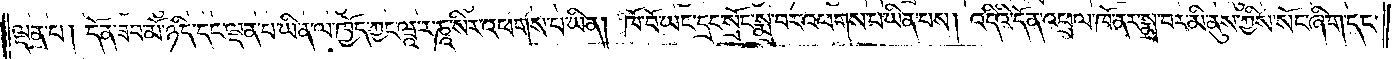ལྡན་པ། དོན་ཟབ་མོ་ཉིད་དང་ལྡན་པ་ཡིན་ལ་ཁྱོད་ཀྱང་ཝཱ་ར་ཎཱ་སིར་འཕགས་པ་ཡིན། ཁོ་བོ་ཡང་དྲང་སྲོང་སྨྲ་བར་འཕགས་པ་ཡིན་པས། འདིའི་དོན་འཕྲལ་ཁོ་ནར་སྨྲ་བར་མི་ནུས་ཀྱིས་སོང་ཞིག་དང་
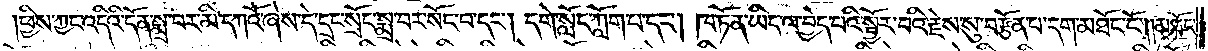།ཕྱིས་ཀྱང་འདིའི་དོན་སྨྲ་བར་མི་དཀའོ་ཞེས་དེ་དྲང་སྲོང་སྨྲ་བར་སོང་བ་དང༌། དགེ་སློང་ཀློག་པ་དང༌། ཁ་ཏོན་ཡིད་ལ་བྱེད་པའི་སྦྱོར་བའི་རྗེས་སུ་བརྩོན་པ་དག་མཐོང་ངོ༌། །མཐོང་
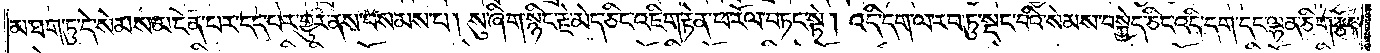མ་ཐག་ཏུ་དེ་སེམས་མངོན་པར་དད་པར་གྱུར་ནས་བསམས་པ། སུ་ཞིག་སྙིང་རྗེ་མེད་ཅིང་འཇིག་རྟེན་ཕ་རོལ་བཏང་སྟེ། འདི་དག་ལ་རབ་ཏུ་སྡང་བའི་སེམས་བསྐྱེད་ཅིང་འདི་དག་དང་ལྷན་ཅིག་རྩོད་
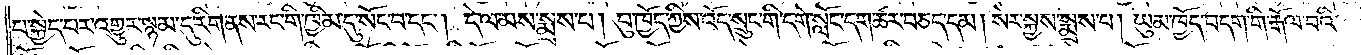པ་སྐྱེད་པར་འགྱུར་སྙམ་དུ་རིག་ནས་རང་གི་ཁྱིམ་དུ་སོང་བ་དང༌། དེ་ལ་མས་སྨྲས་པ། བུ་ཁྱོད་ཀྱིས་འོད་སྲུང་གི་དགེ་སློང་དག་ཚར་བཅད་དམ། སེར་སྐྱས་སྨྲས་པ། ཡུམ་ཁྱོད་བདག་གི་རྒོལ་བའི་
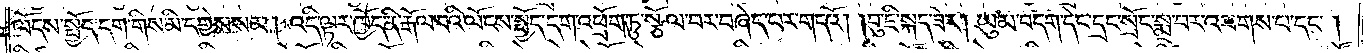ལོངས་སྤྱོད་དག་གིས་མི་དགྱེས་སམ། འདི་ལྟར་ཁྱོད་ནི་རྒོལ་བའི་ལོངས་སྤྱོད་དག་འཕྲོག་ཏུ་སྩོལ་བར་བཞེད་པར་གདའོ། །བུ་ཇི་སྐད་ཟེར། ཡུམ་བདག་དེང་དྲང་སྲོང་སྨྲ་བར་འཕགས་པ་དང༌།
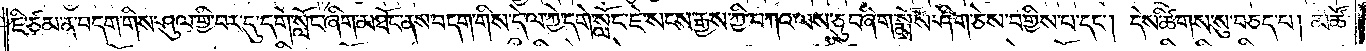ཇི་ཙམ་ན་བདག་གིས་ཤུལ་གྱི་བར་དུ་དགེ་སློང་ཞིག་མཐོང་ནས་བདག་གིས་དེ་ལ་ཀྱེ་དགེ་སློང་ཇེ་སངས་རྒྱས་ཀྱི་བཀའ་ལས་ཅུང་ཞིག་སྨྲོས་ཤིག་ཅེས་བགྱིས་པ་དང༌། དེས་ཚིགས་སུ་བཅད་པ། མཚོ་
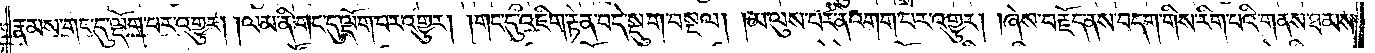རྣམས་གང་དུ་ལྡོག་པར་འགྱུར། །ལམ་ནི་གང་དུ་ལྡོག་པར་འགྱུར། །གང་དུ་འཇིག་རྟེན་བདེ་སྡུག་བསྔལ། །མ་ལུས་པར་ནི་འགག་པར་འགྱུར། །ཞེས་བརྗོད་ནས་བདག་གིས་རིག་པའི་གནས་ཐམས་
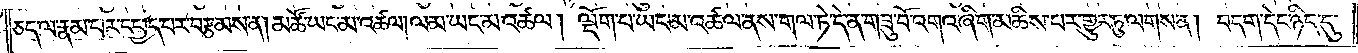ཅད་ལ་རྣམ་པར་དཔྱད་པར་བརྩམས་ན། མཚོ་ཡང་མ་འཚལ།ལམ་ཡང་མ་འཚལ། ལྡོག་པ་ཡང་མ་འཚལ་ནས་གལ་ཏེ་དེ་ན་གཟུ་བོ་འགའ་ཞིག་མཆིས་པར་གྱུར་ཏུ་ལགས་ན། བདག་དེང་ཉིད་དུ་
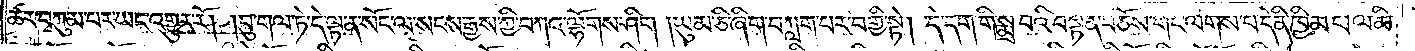ཚར་བཀུམ་པར་ཡང་འགྱུར་རོ། །བུ་གལ་ཏེ་དེ་ལྟ་ན་སོང་ལ་སངས་རྒྱས་ཀྱི་བཀའ་ལྷོགས་ཤིག །ཡུམ་ཅི་ཞིག་བཀླག་པར་བགྱི་སྟེ། དེ་དག་གི་སྨྲ་བའི་བསྟན་བཅོས་གང་ལགས་པ་དེ་ནི་ཁྱིམ་པ་ལ་ཆི་
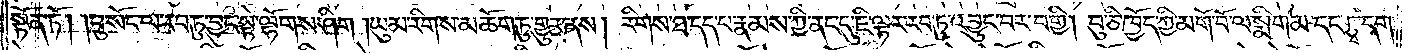སྟོན་ཏོ། །བུ་སོང་ལ་རབ་ཏུ་བྱུང་སྟེ་ལྷོགས་ཤིག །ཡུམ་རིགས་མཆོག་ཏུ་གྱུར་ནས། རིགས་ཐ་དད་པ་རྣམས་ཀྱི་ནང་དུ་ཇི་ལྟར་རབ་ཏུ་འབྱུང་བར་བགྱི། བུ་ཅི་ཁྱོད་ཀྱི་མགོ་བོ་ལ་སྨིག་མ་དང་རྩྭ་དག་
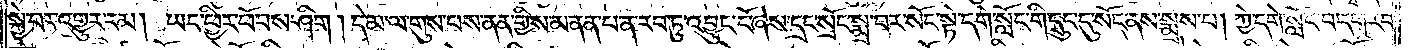སྐྱེ་བར་འགྱུར་རམ། ཡང་ཕྱིར་ཕོབས་ཤིག །དེ་མ་ལ་གུས་པས་ནན་གྱིས་མནན་པ་ན་རབ་ཏུ་འབྱུང་ངོ་ཞེས་དྲང་སྲོང་སྨྲ་བར་སོང་སྟེ་དགེ་སློང་གི་དྲུང་དུ་སོང་ནས་སྨྲས་པ། ཀྱེ་དགེ་སློང་བདག་རབ་
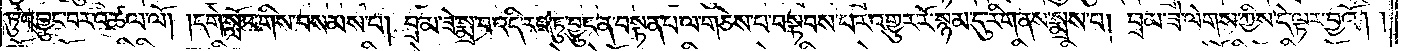ཏུ་འབྱུང་བར་འཚལ་ལོ། །དགེ་སློང་གིས་བསམས་པ། བྲམ་ཟེ་སྨྲ་བ་འདི་རབ་ཏུ་བྱུང་ན་བསྟན་པ་ལ་གཅེས་པ་བསྟབས་པར་འགྱུར་རོ་སྙམ་དུ་རིག་ནས་སྨྲས་པ། བྲམ་ཟེ་ལེགས་ཀྱིས་དེ་ལྟར་བྱའོ། །
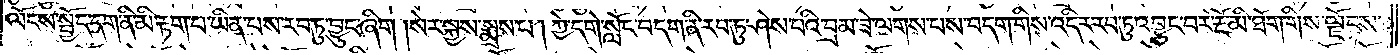ལོངས་སྤྱོད་དག་ནི་མི་རྟག་པ་ཡིན་པས་རབ་ཏུ་བྱུང་ཞིག །སེར་སྐྱས་སྨྲས་པ། ཀྱེ་དགེ་སློང་བདག་ནི་རབ་ཏུ་ཤེས་པའི་བྲམ་ཟེ་ལགས་པས་བདག་གིས་འདིར་རབ་ཏུ་འབྱུང་བར་རྔོ་མི་ཐོག་གིས་ལྗོངས་
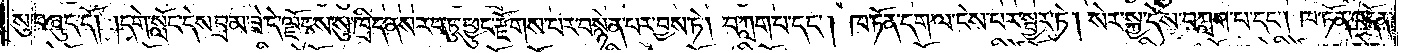སུ་བཞུད་དོ། །དགེ་སློང་དེས་བྲམ་ཟེ་དེ་ལྗོངས་སུ་ཁྲིད་ནས་རབ་ཏུ་ཕྱུང་རྫོགས་པར་བསྙེན་པར་བྱས་ཏེ། བཀླག་པ་དང༌། ཁ་ཏོན་དག་ལ་ངེས་པར་སྦྱར་ཏེ། སེར་སྐྱ་དེས་བཀླག་པ་དང༌། ཁ་ཏོན་འདོན་
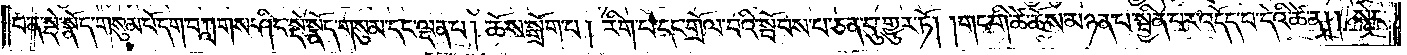པ་ན་སྡེ་སྣོད་གསུམ་པོ་དག་བཀླགས་ཤིང་སྡེ་སྣོད་གསུམ་དང་ལྡན་པ། ཆོས་སྒྲོག་པ། རིག་པ་དང་གྲོལ་བའི་སྤོབས་པ་ཅན་དུ་གྱུར་ཏོ། །གང་གི་ཚེ་ཆོས་མཉན་པ་སྦྱིན་པར་འདོད་པ་དེའི་ཚེ་ན། སེང་
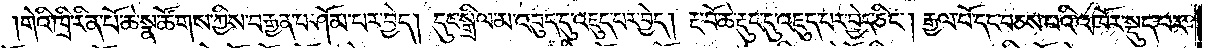གེའི་ཁྲི་རིན་པོ་ཆེ་སྣ་ཚོགས་ཀྱིས་བརྒྱན་པ་ཤོམ་པར་བྱེད། དུང་སྒྲིལ་མ་འབུད་དུ་འཇུད་པར་བྱེད། རྔ་བོ་ཆེ་རྡུང་དུ་འཇུད་པར་བྱེད་ཅིང༌། རྒྱལ་པོ་དང་བཅས་པའི་འཁོར་སྡུད་པར་
